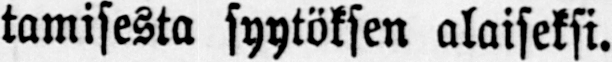tamisesta syytöksen alaiseksi.
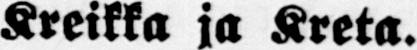Kreikka ja Kreta.
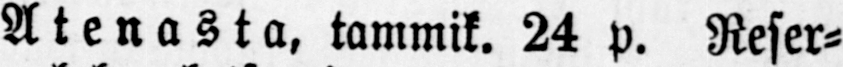Atenasta, tammik. 24 p. Refer-
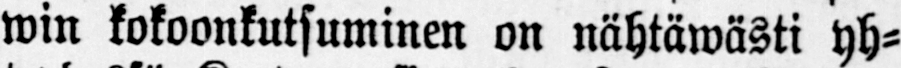win kokoonkutsuminen on nähtäwästi yh-
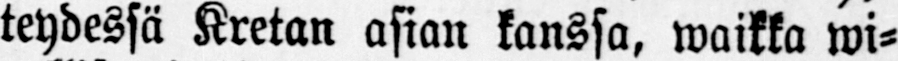teydessä Kretan asian kanssa, waikka wi-
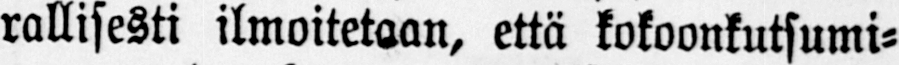rallisesti ilmoitetaan, että kokoonkutsumi-
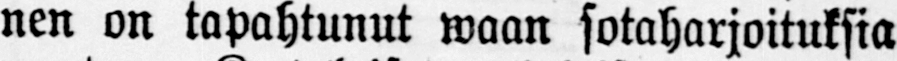nen on tapahtunut waan sotaharjoituksia
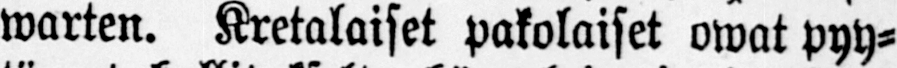warten. Kretalaiset pakolaiset owat pyy-
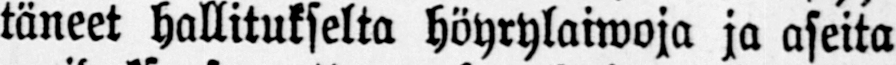täneet hallitukselta höyrylaiwoja ja aseita
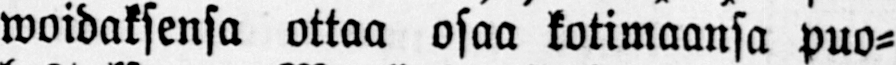woidaksensa ottaa osaa kotimaansa puo-
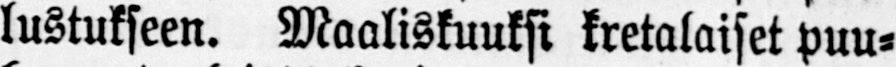lustukseen. Maaliskuuksi kretalaiset puu-
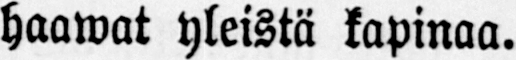haawat yleistä kapinaa.
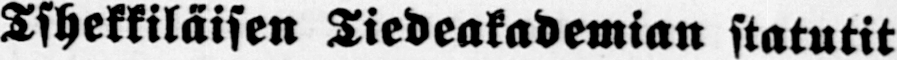Tshekkiläisen Tiedeakademian statutit
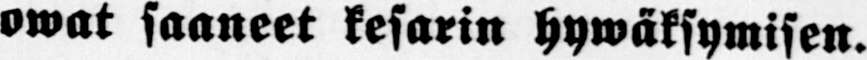owat saaneet kesarin hywäksymisen.
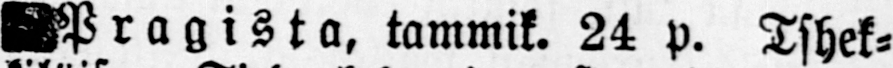Pragista, tammik. 24 p. Tshek-
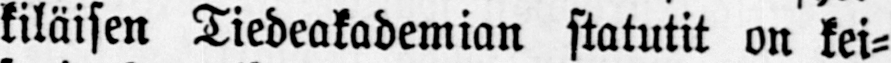kiläisen Tiedeakademian statutit on kei-
